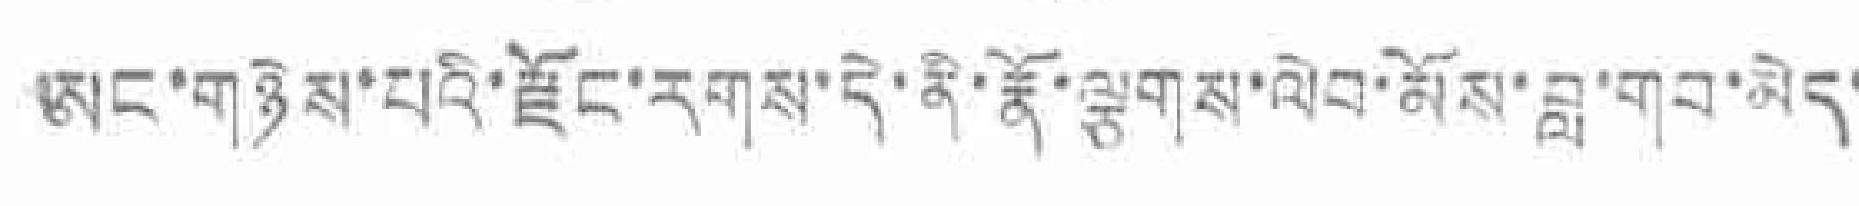ཨང་གཉིས་པའི་རྫོང་རགས་དེ་ནི་རྣོ་ལྕགས་ལེབ་མོས་བླ་གབ་མེད་
